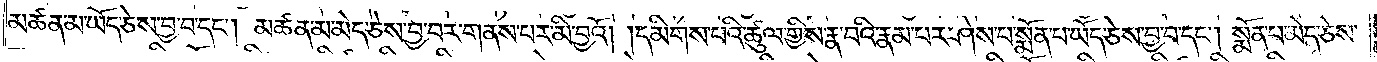མཚན་མ་ཡོད་ཅེས་བྱ་བ་དང༌། མཚན་མ་མེད་ཅེས་བྱ་བར་གནས་པར་མི་བྱའོ། །དམིགས་པའི་ཚུལ་གྱིས་རྣ་བའི་རྣམ་པར་ཤེས་པ་སྨོན་པ་ཡོད་ཅེས་བྱ་བ་དང༌། སྨོན་པ་མེད་ཅེས་
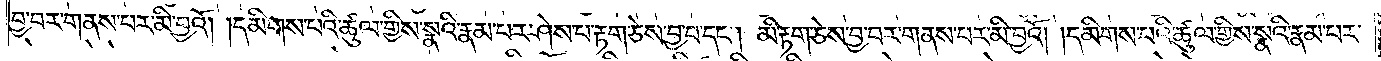བྱ་བར་གནས་པར་མི་བྱའོ། །དམིགས་པའི་ཚུལ་གྱིས་སྣའི་རྣམ་པར་ཤེས་པ་རྟག་ཅེས་བྱ་བ་དང༌། མི་རྟག་ཅེས་བྱ་བར་གནས་པར་མི་བྱའོ། །དམིགས་པའི་ཚུལ་གྱིས་སྣའི་རྣམ་པར་
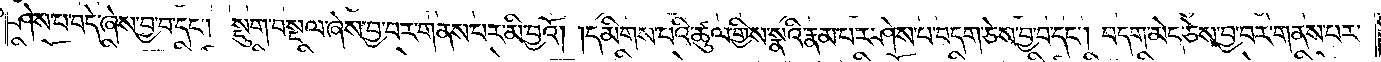ཤེས་པ་བདེ་ཞེས་བྱ་བ་དང༌། སྡུག་བསྔལ་ཞེས་བྱ་བར་གནས་པར་མི་བྱའོ། །དམིགས་པའི་ཚུལ་གྱིས་སྣའི་རྣམ་པར་ཤེས་པ་བདག་ཅེས་བྱ་བ་དང༌། བདག་མེད་ཅེས་བྱ་བར་གནས་པར་
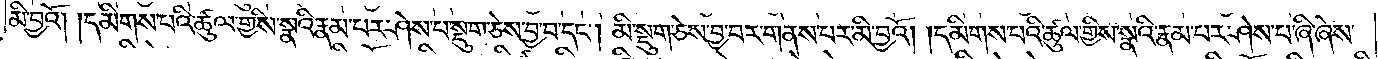མི་བྱའོ། །དམིགས་པའི་ཚུལ་གྱིས་སྣའི་རྣམ་པར་ཤེས་པ་སྡུག་ཅེས་བྱ་བ་དང༌། མི་སྡུག་ཅེས་བྱ་བར་གནས་པར་མི་བྱའོ། །དམིགས་པའི་ཚུལ་གྱིས་སྣའི་རྣམ་པར་ཤེས་པ་ཞི་ཞེས་
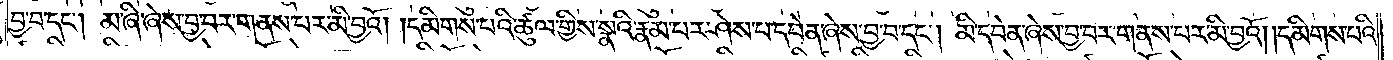བྱ་བ་དང༌། མ་ཞི་ཞེས་བྱ་བར་གནས་པར་མི་བྱའོ། །དམིགས་པའི་ཚུལ་གྱིས་སྣའི་རྣམ་པར་ཤེས་པ་དབེན་ཞེས་བྱ་བ་དང༌། མི་དབེན་ཞེས་བྱ་བར་གནས་པར་མི་བྱའོ། །དམིགས་པའི་
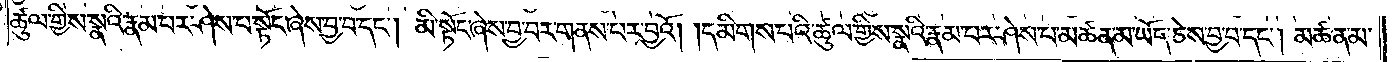ཚུལ་གྱིས་སྣའི་རྣམ་པར་ཤེས་པ་སྟོང་ཞེས་བྱ་བ་དང༌། མི་སྟོང་ཞེས་བྱ་བར་གནས་པར་མི་བྱའོ། །དམིགས་པའི་ཚུལ་གྱིས་སྣའི་རྣམ་པར་ཤེས་པ་མཚན་མ་ཡོད་ཅེས་བྱ་བ་དང༌། མཚན་མ་
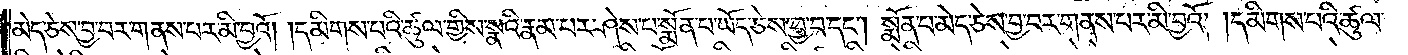མེད་ཅེས་བྱ་བར་གནས་པར་མི་བྱའོ། །དམིགས་པའི་ཚུལ་གྱིས་སྣའི་རྣམ་པར་ཤེས་པ་སྨོན་པ་ཡོད་ཅེས་བྱ་བ་དང༌། སྨོན་པ་མེད་ཅེས་བྱ་བར་གནས་པར་མི་བྱའོ། །དམིགས་པའི་ཚུལ་
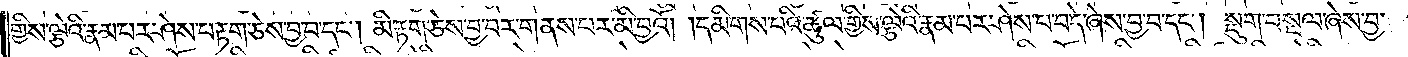གྱིས་ལྕེའི་རྣམ་པར་ཤེས་པ་རྟག་ཅེས་བྱ་བ་དང༌། མི་རྟག་ཅེས་བྱ་བར་གནས་པར་མི་བྱའོ། །དམིགས་པའི་ཚུལ་གྱིས་ལྕེའི་རྣམ་པར་ཤེས་པ་བདེ་ཞེས་བྱ་བ་དང༌། སྡུག་བསྔལ་ཞེས་བྱ་
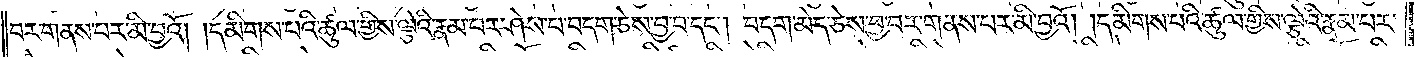བར་གནས་པར་མི་བྱའོ། །དམིགས་པའི་ཚུལ་གྱིས་ལྕེའི་རྣམ་པར་ཤེས་པ་བདག་ཅེས་བྱ་བ་དང༌། བདག་མེད་ཅེས་བྱ་བར་གནས་པར་མི་བྱའོ། །དམིགས་པའི་ཚུལ་གྱིས་ལྕེའི་རྣམ་པར་
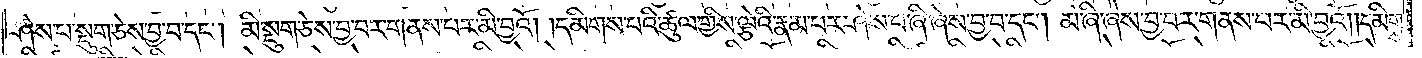ཤེས་པ་སྡུག་ཅེས་བྱ་བ་དང༌། མི་སྡུག་ཅེས་བྱ་བར་གནས་པར་མི་བྱའོ། །དམིགས་པའི་ཚུལ་གྱིས་ལྕེའི་རྣམ་པར་ཤེས་པ་ཞི་ཞེས་བྱ་བ་དང༌། མ་ཞི་ཞེས་བྱ་བར་གནས་པར་མི་བྱའོ། །དམིགས་
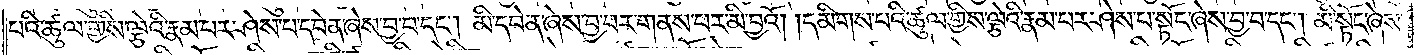པའི་ཚུལ་གྱིས་ལྕེའི་རྣམ་པར་ཤེས་པ་དབེན་ཞེས་བྱ་བ་དང༌། མི་དབེན་ཞེས་བྱ་བར་གནས་པར་མི་བྱའོ། །དམིགས་པའི་ཚུལ་གྱིས་ལྕེའི་རྣམ་པར་ཤེས་པ་སྟོང་ཞེས་བྱ་བ་དང༌། མི་སྟོང་ཞེས་
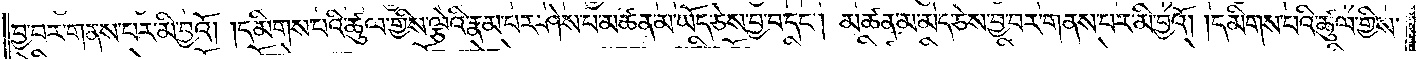བྱ་བར་གནས་པར་མི་བྱའོ། །དམིགས་པའི་ཚུལ་གྱིས་ལྕེའི་རྣམ་པར་ཤེས་པ་མཚན་མ་ཡོད་ཅེས་བྱ་བ་དང༌། མཚན་མ་མེད་ཅེས་བྱ་བར་གནས་པར་མི་བྱའོ། །དམིགས་པའི་ཚུལ་གྱིས་
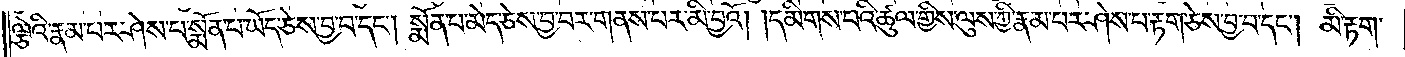ལྕེའི་རྣམ་པར་ཤེས་པ་སྨོན་པ་ཡོད་ཅེས་བྱ་བ་དང༌། སྨོན་པ་མེད་ཅེས་བྱ་བར་གནས་པར་མི་བྱའོ། །དམིགས་པའི་ཚུལ་གྱིས་ལུས་ཀྱི་རྣམ་པར་ཤེས་པ་རྟག་ཅེས་བྱ་བ་དང༌། མི་རྟག་
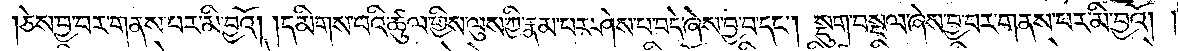ཅེས་བྱ་བར་གནས་པར་མི་བྱའོ། །དམིགས་པའི་ཚུལ་གྱིས་ལུས་ཀྱི་རྣམ་པར་ཤེས་པ་བདེ་ཞེས་བྱ་བ་དང༌། སྡུག་བསྔལ་ཞེས་བྱ་བར་གནས་པར་མི་བྱའོ། །
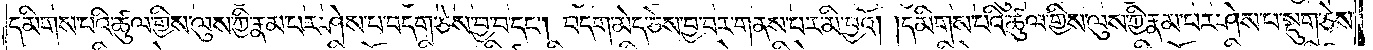དམིགས་པའི་ཚུལ་གྱིས་ལུས་ཀྱི་རྣམ་པར་ཤེས་པ་བདག་ཅེས་བྱ་བ་དང༌། བདག་མེད་ཅེས་བྱ་བར་གནས་པར་མི་བྱའོ། །དམིགས་པའི་ཚུལ་གྱིས་ལུས་ཀྱི་རྣམ་པར་ཤེས་པ་སྡུག་ཅེས་
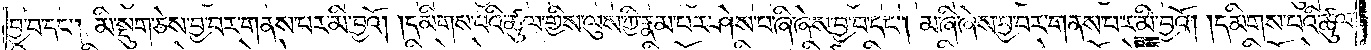བྱ་བ་དང༌། མི་སྡུག་ཅེས་བྱ་བར་གནས་པར་མི་བྱའོ། །དམིགས་པའི་ཚུལ་གྱིས་ལུས་ཀྱི་རྣམ་པར་ཤེས་པ་ཞི་ཞེས་བྱ་བ་དང༌། མ་ཞི་ཞེས་བྱ་བར་གནས་པར་མི་བྱའོ། །དམིགས་པའི་ཚུལ་
